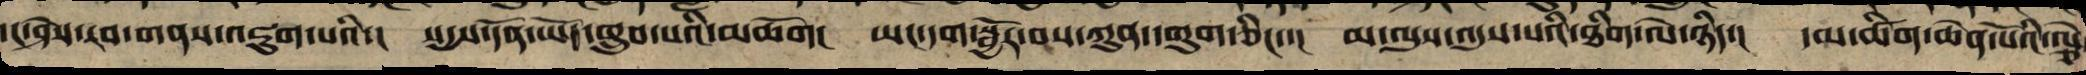དང་ཤེས་རབ་གནས་འཇུག་པའི་། སདྱས་དོན་ཡོད་གྲུབ་པའི་མཆོག། ཡང་དག་སྦྱོར་བས་ཀུན་དགུག་ཅིང་་། མ་ལུས་འདུས་པའི་ཐིག་ལེ་ཉིད་། དམ་ཚིག་ཆེན་པོའི་ལྕེ
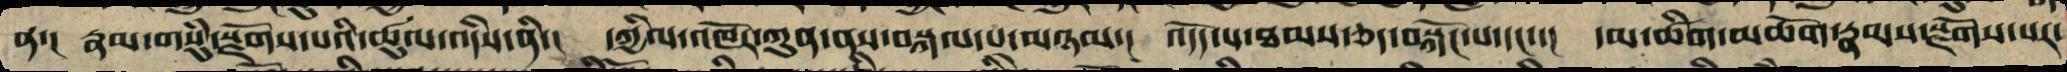ན་། རྣམ་གསུཾ་སྫོགས་པའི་ཚུལ་འདིས་ནི་། དཀྱིལ་འཁོར་ཀུན་ནས་སྐལ་བ་མཉམ་། འདོད་པ་ཐམས་ཅད་བསྐོང་བ་དང་་། དམ་ཚིག་མཆོག་རྣམས་སྫོགས་པར་
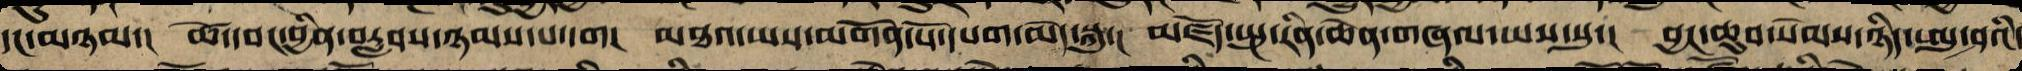དང་མཉམ་། ཚེ་དབང་བྱིན་བརླབས་ཉམས་པ་དག། མཐའ་ཡས་མགོན་པོ་དཔག་མེད་སྐུ་། མཛོད་སྤུ་རིན་ཆེན་གཞལ་ཡས་སུ་། བྱང་ཆུབ་སེམས་ཉིད་ཨུ་ཤའི་
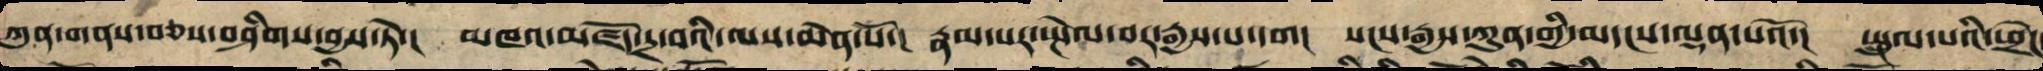ཀུན་གནས་བཅས་བཤིགས་བྱས་ཏེ་། མཁའ་མཛོད་དྲ་བའི་ལས་ཆེན་པོ་། རྣམ་པར་སྤེལ་བར་རྒྱས་པ་དག། སངས་རྒྱས་ཀུན་གྱི་མདངས་ལྡན་པའོ་། སྤྲུལ་པའི་ཕྲེང
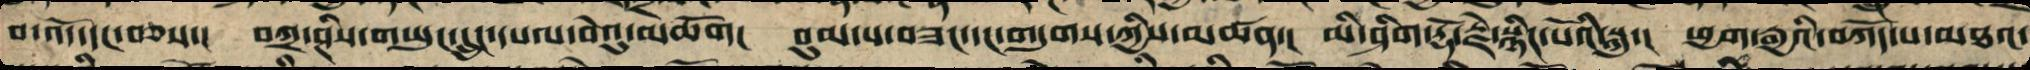བ་འོད་དང་བཅས་། བཀྲ་ཤིས་གཡུང་དྲུང་དཔལ་བེའུ་མཆོག། བུམ་པ་བཟང་དང་གདུགས་ཀྱི་མཚན་། མི་ཤིགས་རྡོ་རྗེ་སྙིང་པོའི་སྐུ་། ཕྱག་རྒྱའི་བཀོད་པ་མཐའ་
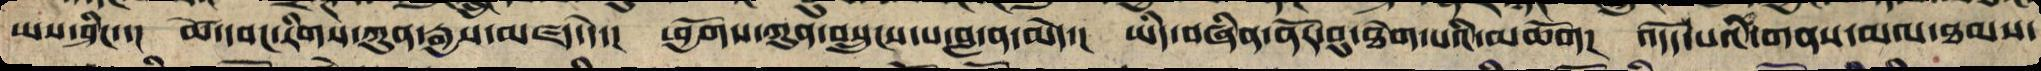ཡས་ཤིང་་། ཚེ་དབང་རིགས་ཀུན་རྒྱས་མཛད་དེ་། ཕྱོགས་ཀུན་བསྲུང་བ་བླ་ན་མེད་། ཡིད་བཞིན་ནོར་བུ་ཐེག་པའི་མཆོག་ འདོད་པའི་གནས་མལ་ཐམས་
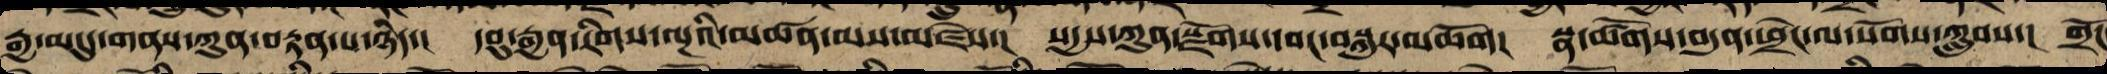རྒྱ་མདུད་གནས་ཀུན་བརྟན་པ་ཉིད་། དབུ་རྒྱན་རིགས་ལྔའི་མཚན་མས་མཛེས་། སདྱས་ཀུན་སྫོགས་དབང་བསྐུར་མཆོག། སྣ་ཚོགས་བདུན་ཕྲེང་ལ་སོགས་བཀླུབས་། གྲོང
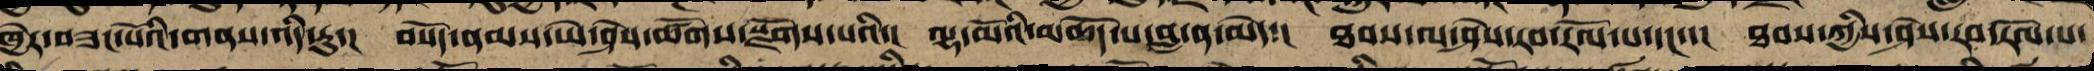ཁྱེར་བཟང་པོའི་གནས་འདི་རུ་། བསོད་ནམས་ཡེ་ཤེས་ཚོགས་སྫོགས་པའི་། ལྷ་མོའི་མཆོད་པ་བླ་ན་མེད་། ཐབས་ལ་ཤེས་རབ་རོལ་པ་དང་་། ཐབས་ཀྱིས་ཤེས་རབ་རོལ་པ་
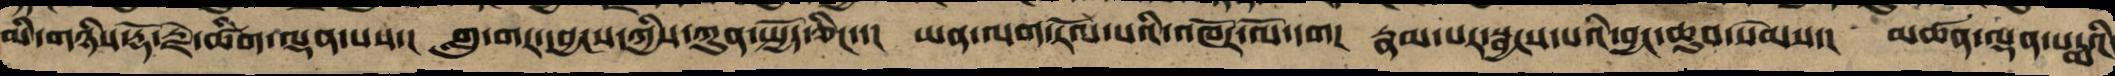མི་གཉིས་རྡོ་རྗེའི་ཚིག་ལྡན་པས་། གླུ་གར་དབྱངས་ཀྱིས་ཀུན་སྤྱོད་ཅིང་་། ཡན་ལག་རོལ་པའི་འཁོར་ལོ་དག། རྣམ་པར་སྦྱངས་བའི་བྱང་ཆུབ་སེམས་། མཚན་ལྡན་པདྨའི་
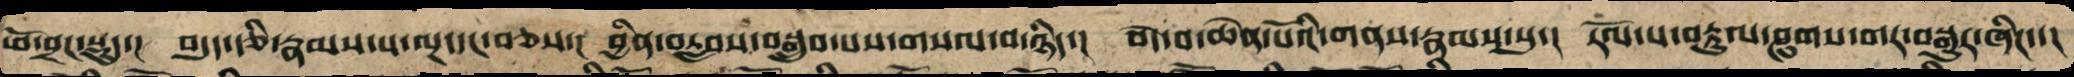ཕོ་བྲང་སྡུད་། བདུད་རྩི་རྣམས་པ་ལྔ་དང་བཅས་། བྱིན་རླབས་བསྒྲུབས་པས་གསལ་བ་ཉིད་། བདེ་བ་ཆེན་པོའི་གནས་རྣམས་སུ་། རོལ་པ་བརྟུལ་ཤུགས་གར་བསྒྱུར་ཞིང་་།
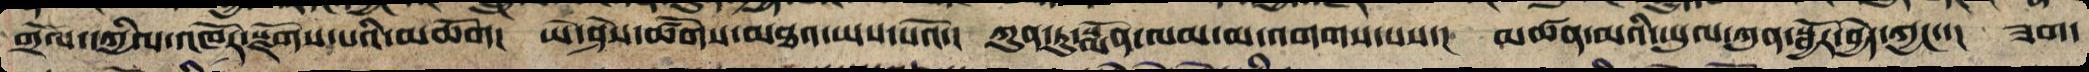གྲོལ་དཀྱིལ་འཁོར་སྫོགས་པའི་མཆོག། ཡེ་ཤེས་ཚོགས་མཆོག་མཐའ་ཡས་པའོ་། ཀུན་ཏུ་སྨོན་ལམ་མ་འགགས་པས་། མཚན་མའི་ཡུལ་ཀུན་སྦྱོར་བྱེད་ཀྱང་་། ཟག་
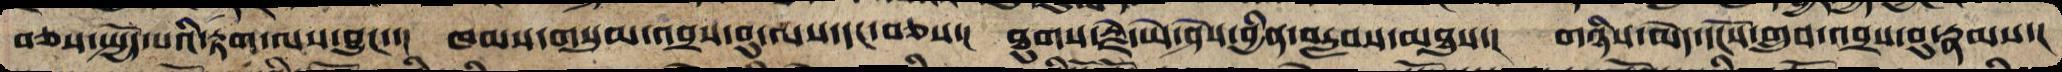བཅས་སྤྱོད་པའི་རྟག་ལས་བྱུང་་། ཁམས་གསུམ་འབྲས་བུ་ལས་དང་བཅས་། ཐགས་རྗེ་ཡེ་ཤེས་བྱིན་བརླབས་མཐུས་། གཉིས་མེད་དངོས་གྲུབ་འབྲས་བུ་རྣམས་།
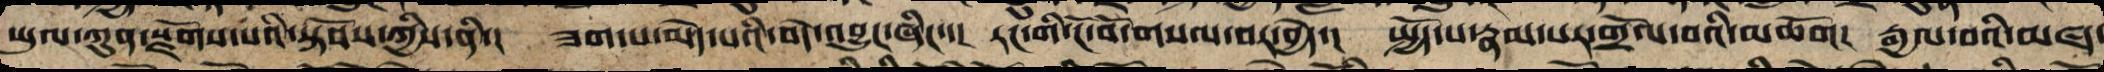ཡུལ་ཀུན་སྫོགས་པའི་སྟོབས་ཀྱིས་ནི་། ཟག་པ་མེད་པའི་བདེ་འབྱུང་ཞིང་་། རང་གི་ངོ་བོ་གསལ་བར་བྱེད་། སྤྱོད་པ་རྣམ་པར་གྲོལ་བའི་མཆོག། རྒྱལ་བའི་མཛད་
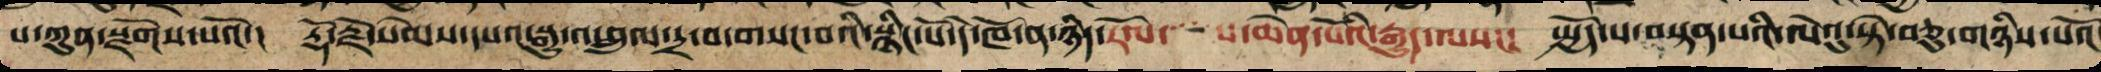པ་ཀུན་སྫོགས་པའོ་། རྡོ་རྗེ་སེམས་དཔའ་སྒྱུ་འཕྲུལ་དྲ་བ་གསང་བའི་སྙིང་པོ་དེ་ཁོ་ན་ཉིད་རོལ་པ་ཆེན་པོའི་རྒྱུད་ལས་། སྤྱོད་པ་བསྟན་པའི་ལེའུ་སྟེ་བཅུ་གཉིས་པའོ།
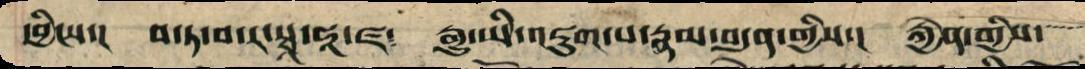དབྱིངས་། བ་ཏ་བ་ར་སྭཱ་ཧཱ་ཛ༴  རྒྱུ་ཡི་འཇུག་པ་རྣམ་བདུན་གྱིས་། རྐྱེན་གྱིས་
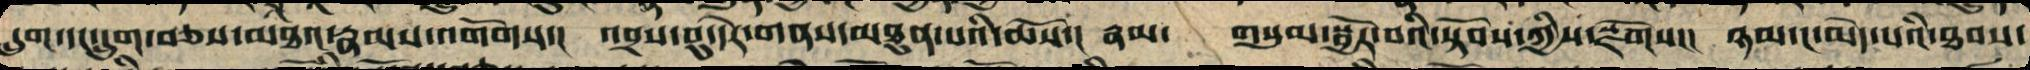དྲུག་དང་དྲུག་བཅས་མཐའ་རྣམས་འགོགས་། འབྲས་བུ་དེར་གནས་མཐུན་པའི་ཆོས་། རྣམ་  གསུམ་སྦྱོར་བའི་སྟོབས་ཀྱིས་སྫོགས་། ཉམ་ང་མེད་པའི་ཐབས་
